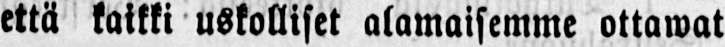että kaikki uskolliset alamaisemme ottawat
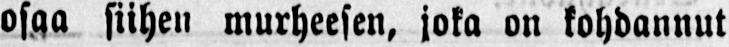osaa siihen murheesen, joka on kohdannut
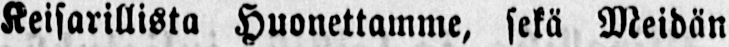Keisarillista Huonettamme, sekä Meidän
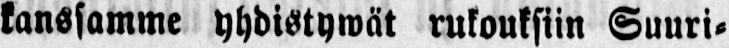kanssamme yhdistywät rukouksiin Suuri-
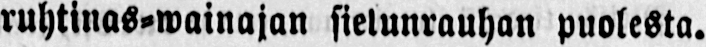ruhtinas-wainajan sielunrauhan puolesta.
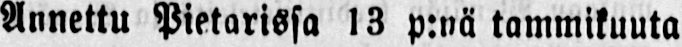Annettu Pietarissa 13 p:nä tammikuuta
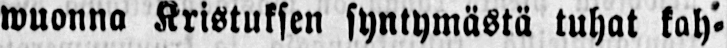wuonna Kristuksen syntymästä tuhat kah-
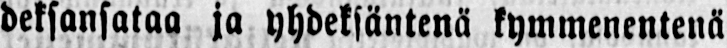deksansataa ja yhdeksäntenä kymmenentenä
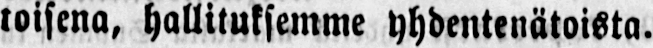loisena, hallituksemme yhdentenätoista.
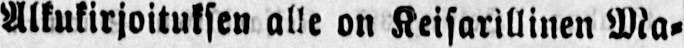Alkukirjoituksen alle on Keisarillinen Ma-
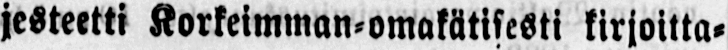jesteetti Korkeimman-omakätisesti kirjoitta-
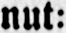nut:
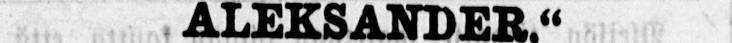ALEKSANDER."
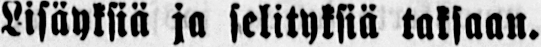Lisäyksiä ja selityksiä taksaan.
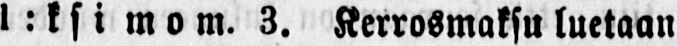l:ksi mom. 3. Kerrosmaksu luetaan
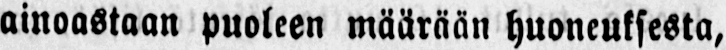ainoastaan puoleen määrään huoneuksesta,
